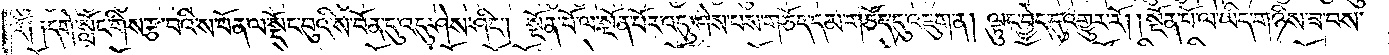རོ། །དགེ་སློང་གིས་རྩ་བའི་ས་བོན་ལ་སྡོང་བུའི་ས་བོན་དུ་འདུ་ཤེས་ཤིང༌། སྔོན་པོ་ལ་སྔོན་པོར་འདུ་ཤེས་པས་གཅོད་དམ་གཅོད་དུ་འཇུག་ན། ལྟུང་བྱེད་དུ་འགྱུར་རོ། །སྔོན་པོ་ལ་ཡིད་གཉིས་ཟ་བས་
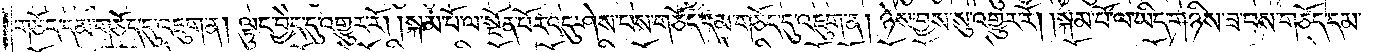གཅོད་དམ་གཅོད་དུ་འཇུག་ན། ལྟུང་བྱེད་དུ་འགྱུར་རོ། །སྐམ་པོ་ལ་སྔོན་པོར་འདུ་ཤེས་པས་གཅོད་དམ་གཅོང་དུ་འཇུག་ན། ཉེས་བྱས་སུ་འགྱུར་རོ། །སྐམ་པོ་ལ་ཡིད་གཉིས་ཟ་བས་གཅོད་དམ་
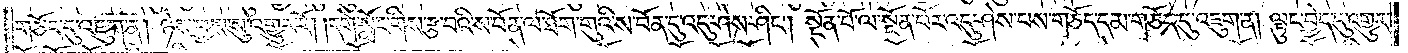གཅོད་དུ་འཇུག་ན། ཉེས་བྱས་སུ་འགྱུར་རོ། །དགེ་སློང་གིས་རྩ་བའི་ས་བོན་ལ་ཐོག་གུའི་ས་བོན་དུ་འདུ་ཤེས་ཤིང༌། སྔོན་པོ་ལ་སྔོན་པོར་འདུ་ཤེས་པས་གཅོད་དམ་གཅོད་དུ་འཇུག་ན། ལྟུང་བྱེད་དུ་འགྱུར་
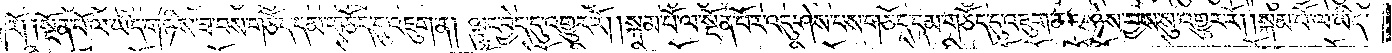རོ། །སྔོན་པོ་ལ་ཡིད་གཉིས་ཟ་བས་གཅོད་དམ་གཅོད་དུ་འཇུག་ན། ལྟུང་བྱེད་དུ་འགྱུར་རོ། །སྐམ་པོ་ལ་སྔོན་པོར་འདུ་ཤེས་པས་གཅོད་དམ་གཅོད་དུ་འཇུག་ན། ཉེས་བྱས་སུ་འགྱུར་རོ། །སྐམ་པོ་ལ་ཡིད་
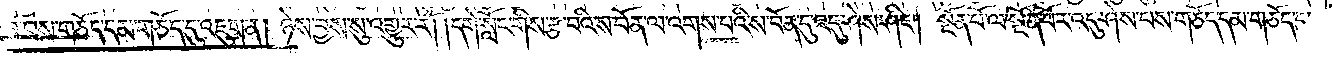གཉིས་ཟ་བས་གཅོད་དམ་གཅོད་དུ་འཇུག་ན། ཉེས་བྱས་སུ་འགྱུར་རོ། །དགེ་སློང་གིས་རྩ་བའི་ས་བོན་ལ་འགས་པའི་ས་བོན་དུ་འདུ་ཤེས་ཤིང༌། སྔོན་པོ་ལ་སྔོན་པོར་འདུ་ཤེས་པས་གཅོད་དམ་གཅོད་དུ་
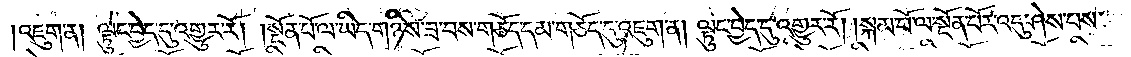འཇུག་ན། ལྟུང་བྱེད་དུ་འགྱུར་རོ། །སྔོན་པོ་ལ་ཡིད་གཉིས་ཟ་བས་གཅོད་དམ་གཅོད་དུ་འཇུག་ན། ལྟུང་བྱེད་དུ་འགྱུར་རོ། །སྐམ་པོ་ལ་སྔོན་པོར་འདུ་ཤེས་པས་
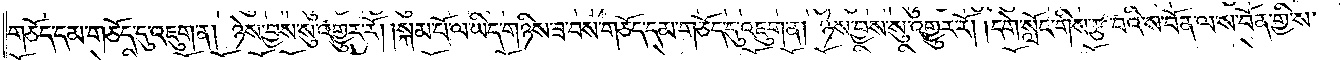གཅོད་དམ་གཅོད་དུ་འཇུག་ན། ཉེས་བྱས་སུ་འགྱུར་རོ། །སྐམ་པོ་ལ་ཡིད་གཉིས་ཟ་བས་གཅོད་དམ་གཅོད་དུ་འཇུག་ན། ཉེས་བྱས་སུ་འགྱུར་རོ། །དགེ་སློང་གིས་རྩ་བའི་ས་བོན་ལ་ས་བོན་གྱི་ས་
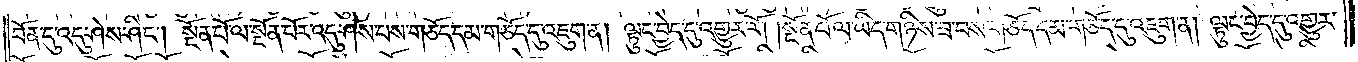བོན་དུ་འདུ་ཤེས་ཤིང༌། སྔོན་པོ་ལ་སྔོན་པོར་འདུ་ཤེས་པས་གཅོད་དམ་གཅོད་དུ་འཇུག་ན། ལྟུང་བྱེད་དུ་འགྱུར་རོ། །སྔོན་པོ་ལ་ཡིད་གཉིས་ཟ་བས་གཅོད་དམ་གཅོད་དུ་འཇུག་ན། ལྟུང་བྱེད་དུ་འགྱུར་
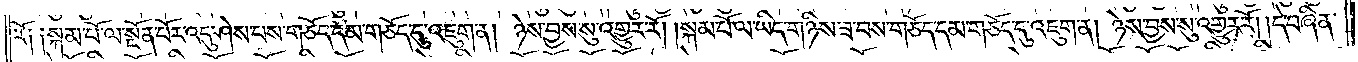རོ། །སྐམ་པོ་ལ་སྔོན་པོར་འདུ་ཤེས་པས་གཅོད་དམ་གཅོད་དུ་འཇུག་ན། ཉེས་བྱས་སུ་འགྱུར་རོ། །སྐམ་པོ་ལ་ཡིད་གཉིས་ཟ་བས་གཅོད་དམ་གཅོད་དུ་འཇུག་ན། ཉེས་བྱས་སུ་འགྱུར་རོ། །དེ་བཞིན་
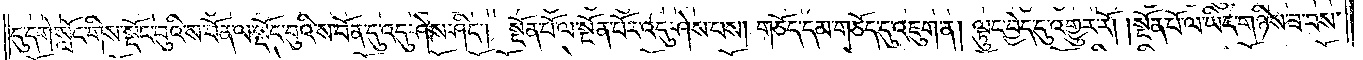དུ་དགེ་སློང་གིས་སྡོང་བུའི་ས་བོན་ལ་སྡོང་བུའི་ས་བོན་དུ་འདུ་ཤེས་ཤིང༌། སྔོན་པོ་ལ་སྔོན་པོར་འདུ་ཤེས་པས། གཅོད་དམ་གཅོད་དུ་འཇུག་ན། ལྟུང་བྱེད་དུ་འགྱུར་རོ། །སྔོན་པོ་ལ་ཡིད་གཉིས་ཟ་བས་
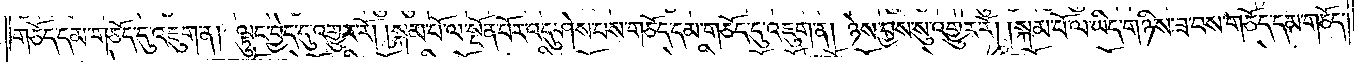གཅོད་དམ་གཅོད་དུ་འཇུག་ན། ལྟུང་བྱེད་དུ་འགྱུར་རོ། །སྐམ་པོ་ལ་སྔོན་པོར་འདུ་ཤེས་པས་གཅོད་དམ་གཅོད་དུ་འཇུག་ན། ཉེས་བྱས་སུ་འགྱུར་རོ། །སྐམ་པོ་ལ་ཡིད་གཉིས་ཟ་བས་གཅོད་དམ་གཅོད་
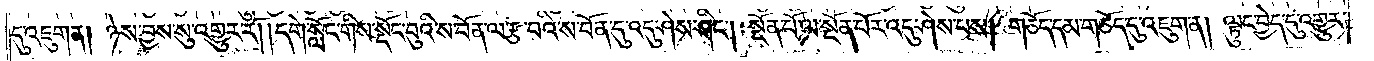དུ་འཇུག་ན། ཉེས་བྱས་སུ་འགྱུར་རོ། །དགེ་སློང་གིས་སྡོང་བུའི་ས་བོན་ལ་རྩ་བའི་ས་བོན་དུ་འདུ་ཤེས་ཤིང༌། སྔོན་པོ་ལ་སྔོན་པོར་འདུ་ཤེས་པས། གཅོད་དམ་གཅོད་དུ་འཇུག་ན། ལྟུང་བྱེད་དུ་འགྱུར་
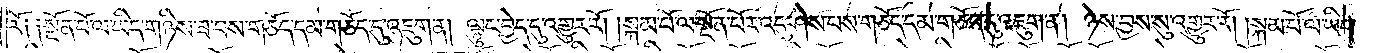རོ། །སྔོན་པོ་ལ་ཡིད་གཉིས་ཟ་བས་གཅོད་དམ་གཅོད་དུ་འཇུག་ན། ལྟུང་བྱེད་དུ་འགྱུར་རོ། །སྐམ་པོ་ལ་སྔོན་པོར་འདུ་ཤེས་པས་གཅོད་དམ་གཅོད་དུ་འཇུག་ན། ཉེས་བྱས་སུ་འགྱུར་རོ། །སྐམ་པོ་ལ་ཡིད་
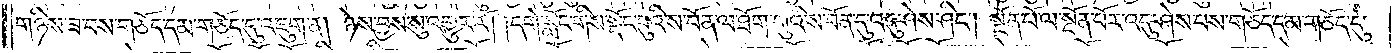གཉིས་ཟ་བས་གཅོད་དམ་གཅོད་དུ་འཇུག་ན། ཉེས་བྱས་སུ་འགྱུར་རོ། །དགེ་སློང་གིས་སྡོང་བུའི་ས་བོན་ལ་ཐོག་གུའི་ས་བོན་དུ་འདུ་ཤེས་ཤིང༌། སྔོན་པོ་ལ་སྔོན་པོར་འདུ་ཤེས་པས་གཅོད་དམ་གཅོད་དུ་
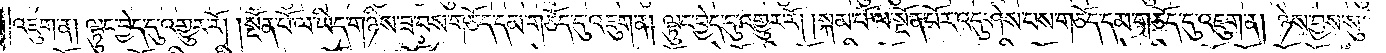འཇུག་ན། ལྟུང་བྱེད་དུ་འགྱུར་རོ། །སྔོན་པོ་ལ་ཡིད་གཉིས་ཟ་བས་གཅོད་དམ་གཅོད་དུ་འཇུག་ན། ལྟུང་བྱེད་དུ་འགྱུར་རོ། །སྐམ་པོ་ལ་སྔོན་པོར་འདུ་ཤེས་པས་གཅོད་དམ་གཅོད་དུ་འཇུག་ན། ཉེས་བྱས་སུ་
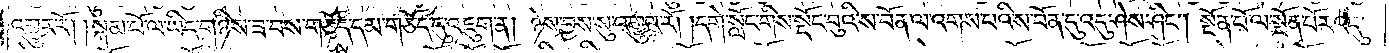འགྱུར་རོ། །སྐམ་པོ་ལ་ཡིད་གཉིས་ཟ་བས་གཅོད་དམ་གཅོད་དུ་འཇུག་ན། ཉེས་བྱས་སུ་འགྱུར་རོ། །དགེ་སློང་གིས་སྡོང་བུའི་ས་བོན་ལ་འགས་པའི་ས་བོན་དུ་འདུ་ཤེས་ཤིང༌། སྔོན་པོ་ལ་སྔོན་པོར་འདུ་
